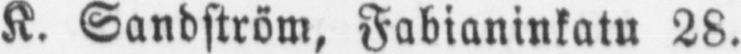K. Sandström, Fabianinkatu 28.
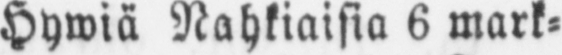Hywiä Nahkiaisia 6 mark-
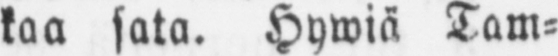kaa sata. Hywiä Tam-
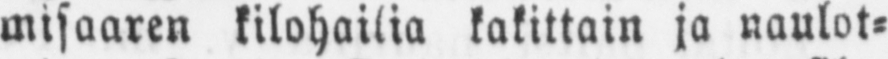misaaren kilohailia kakittain ja naulat-
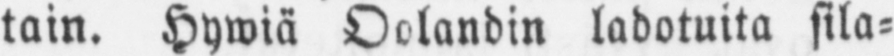tain. Hywiä Oolandin ladotuita sila-
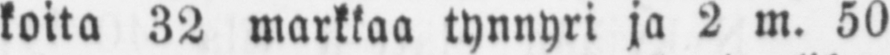koita 32 markkaa tynnyri ja 2 m. 50
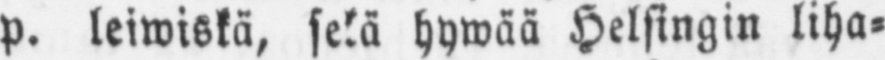p. leiwiskä, sekä hywää Helsingin liha-
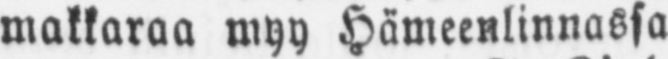makkaraa myy Hämeenlinnassa
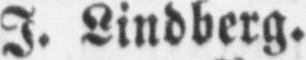I. Lindberg.
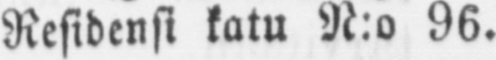Residensi katu N:o 96.
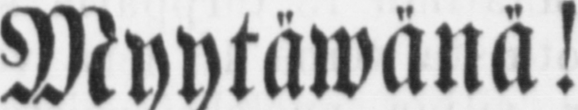Myytäwänä!
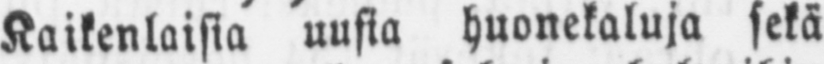Kaikenlaisia uusia huonekaluja sekä
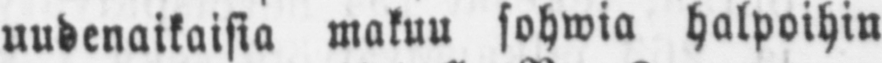uudenaikaisia makuu sohwia halpoihin
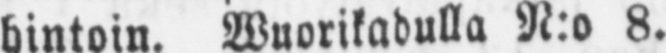hintoin. Wuorikadulla N:o 8.
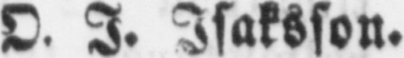O. I. Isaksson.
